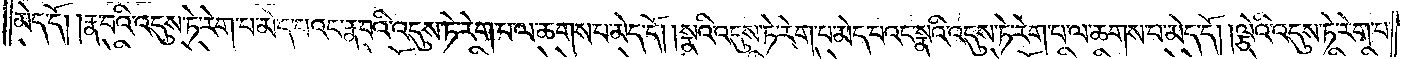མེད་དོ། །རྣ་བའི་འདུས་ཏེ་རེག་པ་མེད་པའང་རྣ་བའི་འདུས་ཏེ་རེག་པ་ལ་ཆགས་པ་མེད་དོ། །སྣའི་འདུས་ཏེ་རེག་པ་མེད་པའང་སྣའི་འདུས་ཏེ་རེག་པ་ལ་ཆགས་པ་མེད་དོ། །ལྕེའི་འདུས་ཏེ་རེག་པ་
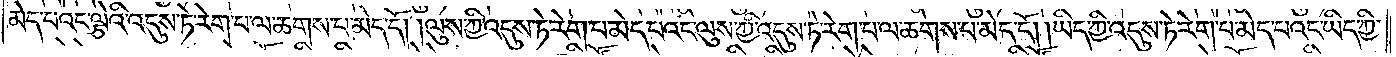མེད་པའང་ལྕེའི་འདུས་ཏེ་རེག་པ་ལ་ཆགས་པ་མེད་དོ། །ལུས་ཀྱི་འདུས་ཏེ་རེག་པ་མེད་པའང་ལུས་ཀྱི་འདུས་ཏེ་རེག་པ་ལ་ཆགས་པ་མེད་དོ། །ཡིད་ཀྱི་འདུས་ཏེ་རེག་པ་མེད་པའང་ཡིད་ཀྱི་
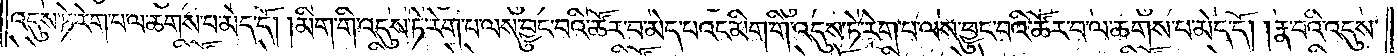འདུས་ཏེ་རེག་པ་ལ་ཆགས་པ་མེད་དོ། །མིག་གི་འདུས་ཏེ་རེག་པ་ལས་བྱུང་བའི་ཚོར་བ་མེད་པའང་མིག་གི་འདུས་ཏེ་རེག་པ་ལས་བྱུང་བའི་ཚོར་བ་ལ་ཆགས་པ་མེད་དོ། རྣ་བའི་འདུས་
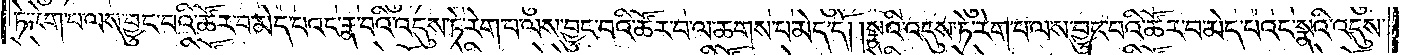ཏེ་རེག་པ་ལས་བྱུང་བའི་ཚོར་བ་མེད་པའང་རྣ་བའི་འདུས་ཏེ་རེག་པ་ལས་བྱུང་བའི་ཚོར་བ་ལ་ཆགས་པ་མེད་དོ། །སྣའི་འདུས་ཏེ་རེག་པ་ལས་བྱུང་བའི་ཚོར་བ་མེད་པའང་སྣའི་འདུས་
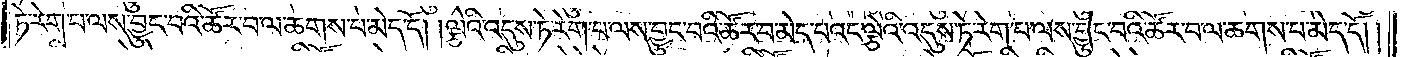ཏེ་རེག་པ་ལས་བྱུང་བའི་ཚོར་བ་ལ་ཆགས་པ་མེད་དོ། །ལྕེའི་འདུས་ཏེ་རེག་པ་ལས་བྱུང་བའི་ཚོར་བ་མེད་པའང་ལྕེའི་འདུས་ཏེ་རེག་པ་ལས་བྱུང་བའི་ཚོར་བ་ལ་ཆགས་པ་མེད་དོ། །
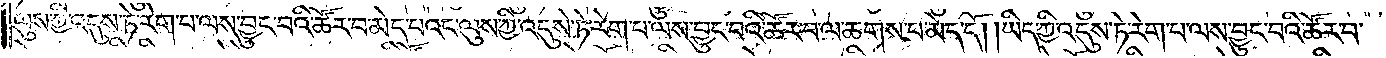ལུས་ཀྱི་འདུས་ཏེ་རེག་པ་ལས་བྱུང་བའི་ཚོར་བ་མེད་པའང་ལུས་ཀྱི་འདུས་ཏེ་རེག་པ་ལས་བྱུང་བའི་ཚོར་བ་ལ་ཆགས་པ་མེད་དོ། །ཡིད་ཀྱི་འདུས་ཏེ་རེག་པ་ལས་བྱུང་བའི་ཚོར་བ་
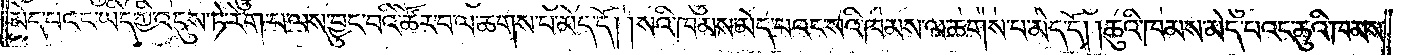མེད་པའང་ཡིད་ཀྱི་འདུས་ཏེ་རེག་པ་ལས་བྱུང་བའི་ཚོར་བ་ལ་ཆགས་པ་མེད་དོ། །སའི་ཁམས་མེད་པའང་སའི་ཁམས་ལ་ཆགས་པ་མེད་དོ། །ཆུའི་ཁམས་མེད་པའང་ཆུའི་ཁམས་
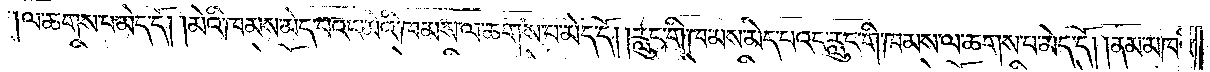ལ་ཆགས་པ་མེད་དོ། །མེའི་ཁམས་མེད་པའང་མེའི་ཁམས་ལ་ཆགས་པ་མེད་དོ། །རླུང་གི་ཁམས་མེད་པའང་རླུང་གི་ཁམས་ལ་ཆགས་པ་མེད་དོ། །ནམ་མཁའི་
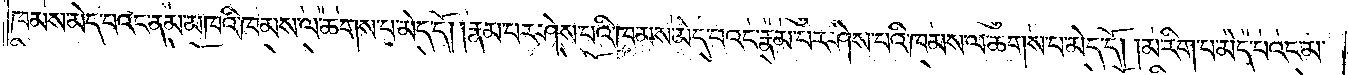ཁམས་མེད་པའང་ནམ་མཁའི་ཁམས་ལ་ཆགས་པ་མེད་དོ། །རྣམ་པར་ཤེས་པའི་ཁམས་མེད་པའང་རྣམ་པར་ཤེས་པའི་ཁམས་ལ་ཆགས་པ་མེད་དོ། །མ་རིག་པ་མེད་པའང་མ་
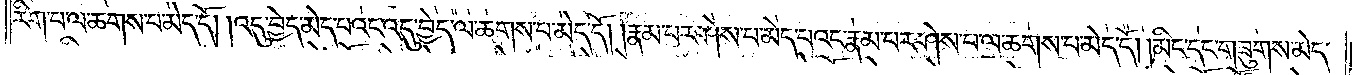རིག་པ་ལ་ཆགས་པ་མེད་དོ། །འདུ་བྱེད་མེད་པའང་འདུ་བྱེད་ལ་ཆགས་པ་མེད་དོ། །རྣམ་པར་ཤེས་པ་མེད་པའང་རྣམ་པར་ཤེས་པ་ལ་ཆགས་པ་མེད་དོ། །མིང་དང་གཟུགས་མེད་
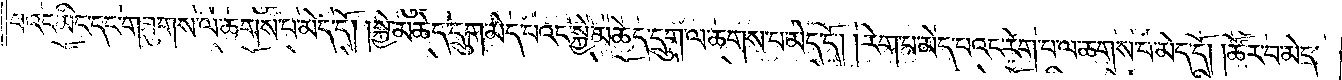པའང་མིང་དང་གཟུགས་ལ་ཆགས་པ་མེད་དོ། །སྐྱེ་མཆེད་དྲུག་མེད་པའང་སྐྱེ་མཆེད་དྲུག་ལ་ཆགས་པ་མེད་དོ། །རེག་པ་མེད་པའང་རེག་པ་ལ་ཆགས་པ་མེད་དོ། །ཚོར་བ་མེད་
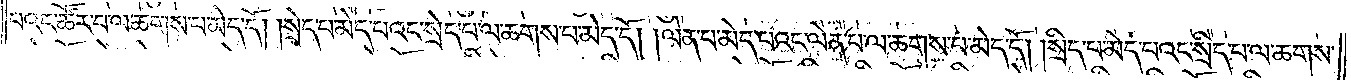པའང་ཚོར་བ་ལ་ཆགས་པ་མེད་དོ། །སྲེད་པ་མེད་པའང་སྲེད་པ་ལ་ཆགས་པ་མེད་དོ། །ལེན་པ་མེད་པའང་ལེན་པ་ལ་ཆགས་པ་མེད་དོ། །སྲིད་པ་མེད་པའང་སྲིད་པ་ལ་ཆགས་
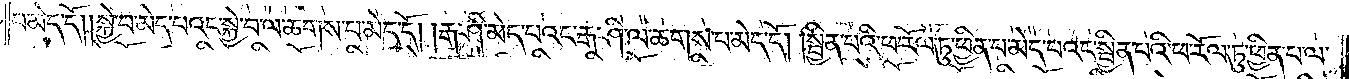པ་མེད་དོ། །སྐྱེ་བ་མེད་པའང་སྐྱེ་བ་ལ་ཆགས་པ་མེད་དོ། །རྒ་ཤི་མེད་པའང་རྒ་ཤི་ལ་ཆགས་པ་མེད་དོ། །སྦྱིན་པའི་ཕ་རོལ་ཏུ་ཕྱིན་པ་མེད་པའང་སྦྱིན་པའི་ཕ་རོལ་ཏུ་ཕྱིན་པ་ལ་
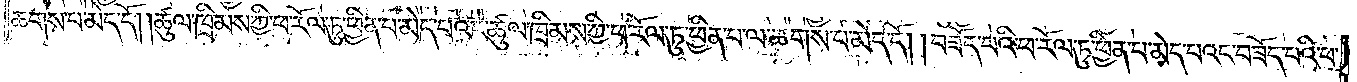ཆགས་པ་མེད་དོ། །ཚུལ་ཁྲིམས་ཀྱི་ཕ་རོལ་ཏུ་ཕྱིན་པ་མེད་པའང་ཚུལ་ཁྲིམས་ཀྱི་ཕ་རོལ་ཏུ་ཕྱིན་པ་ལ་ཆགས་པ་མེད་དོ། །བཟོད་པའི་ཕ་རོལ་ཏུ་ཕྱིན་པ་མེད་པའང་བཟོད་པའི་ཕ་
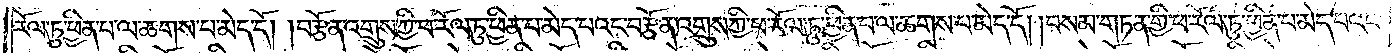རོལ་ཏུ་ཕྱིན་པ་ལ་ཆགས་པ་མེད་དོ། །བརྩོན་འགྲུས་ཀྱི་ཕ་རོལ་ཏུ་ཕྱིན་པ་མེད་པའང་བརྩོན་འགྲུས་ཀྱི་ཕ་རོལ་ཏུ་ཕྱིན་པ་ལ་ཆགས་པ་མེད་དོ། །བསམ་གཏན་གྱི་ཕ་རོལ་ཏུ་ཕྱིན་པ་མེད་པའང་
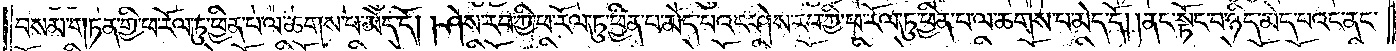བསམ་གཏན་གྱི་ཕ་རོལ་ཏུ་ཕྱིན་པ་ལ་ཆགས་པ་མེད་དོ། །ཤེས་རབ་ཀྱི་ཕ་རོལ་ཏུ་ཕྱིན་པ་མེད་པའང་ཤེས་རབ་ཀྱི་ཕ་རོལ་ཏུ་ཕྱིན་པ་ལ་ཆགས་པ་མེད་དོ། །ནང་སྟོང་པ་ཉིད་མེད་པའང་ནང་
